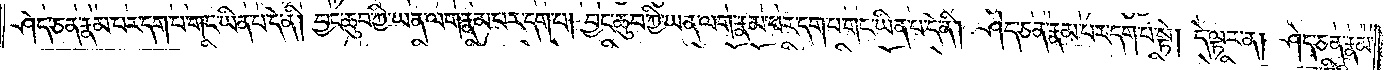ཤེད་ཅན་རྣམ་པར་དག་པ་གང་ཡིན་པ་དེ་ནི། བྱང་ཆུབ་ཀྱི་ཡན་ལག་རྣམ་པར་དག་པ། བྱང་ཆུབ་ཀྱི་ཡན་ལག་རྣམ་པར་དག་པ་གང་ཡིན་པ་དེ་ནི། ཤེད་ཅན་རྣམ་པར་དག་པ་སྟེ། དེ་ལྟར་ན། ཤེད་ཅན་རྣམ་
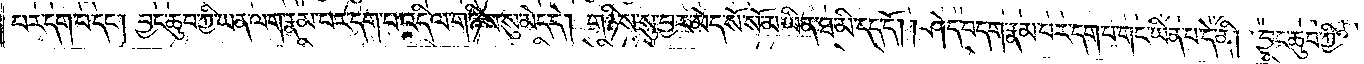པར་དག་པ་དང༌། བྱང་ཆུབ་ཀྱི་ཡན་ལག་རྣམ་པར་དག་པ་འདི་ལ་གཉིས་སུ་མེད་དེ། གཉིས་སུ་བྱར་མེད་སོ་སོ་མ་ཡིན་ཐ་མི་དད་དོ། །ཤེད་བདག་རྣམ་པར་དག་པ་གང་ཡིན་པ་དེ་ནི། བྱང་ཆུབ་ཀྱི་
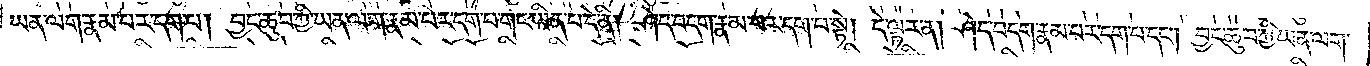ཡན་ལག་རྣམ་པར་དག་པ། བྱང་ཆུབ་ཀྱི་ཡན་ལག་རྣམ་པར་དག་པ་གང་ཡིན་པ་དེ་ནི། ཤེད་བདག་རྣམ་པར་དག་པ་སྟེ། དེ་ལྟར་ན། ཤེད་བདག་རྣམ་པར་དག་པ་དང༌། བྱང་ཆུབ་ཀྱི་ཡན་ལག་
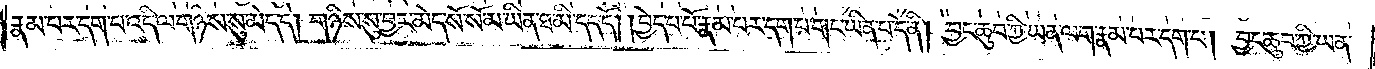རྣམ་པར་དག་པ་འདི་ལ་གཉིས་སུ་མེད་དེ། གཉིས་སུ་བྱར་མེད་སོ་སོ་མ་ཡིན་ཐ་མི་དད་དོ། །བྱེད་པ་པོ་རྣམ་པར་དག་པ་གང་ཡིན་པ་དེ་ནི། བྱང་ཆུབ་ཀྱི་ཡན་ལག་རྣམ་པར་དག་པ། བྱང་ཆུབ་ཀྱི་ཡན་
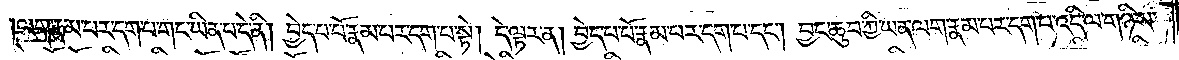ལག་རྣམ་པར་དག་པ་གང་ཡིན་པ་དེ་ནི། བྱེད་པ་པོ་རྣམ་པར་དག་པ་སྟེ། དེ་ལྟར་ན། བྱེད་པ་པོ་རྣམ་པར་དག་པ་དང༌། བྱང་ཆུབ་ཀྱི་ཡན་ལག་རྣམ་པར་དག་པ་འདི་ལ་གཉིས་
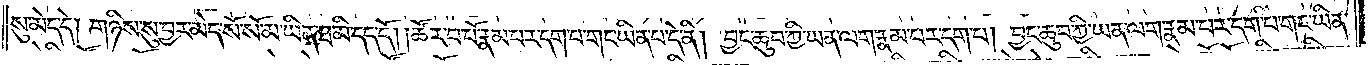སུ་མེད་དེ། གཉིས་སུ་བྱར་མེད་སོ་སོ་མ་ཡིན་ཐ་མི་དད་དོ། །ཚོར་བ་པོ་རྣམ་པར་དག་པ་གང་ཡིན་པ་དེ་ནི། བྱང་ཆུབ་ཀྱི་ཡན་ལག་རྣམ་པར་དག་པ། བྱང་ཆུབ་ཀྱི་ཡན་ལག་རྣམ་པར་དག་པ་གང་ཡིན་
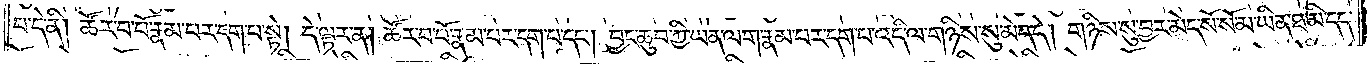པ་དེ་ནི། ཚོར་བ་པོ་རྣམ་པར་དག་པ་སྟེ། དེ་ལྟར་ན། ཚོར་བ་པོ་རྣམ་པར་དག་པ་དང༌། བྱང་ཆུབ་ཀྱི་ཡན་ལག་རྣམ་པར་དག་པ་འདི་ལ་གཉིས་སུ་མེད་དེ། གཉིས་སུ་བྱར་མེད་སོ་སོ་མ་ཡིན་ཐ་མི་དད་
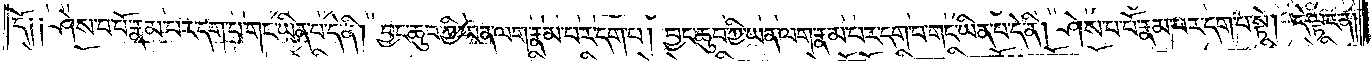དོ། །ཤེས་པ་པོ་རྣམ་པར་དག་པ་གང་ཡིན་པ་དེ་ནི། བྱང་ཆུབ་ཀྱི་ཡན་ལག་རྣམ་པར་དག་པ། བྱང་ཆུབ་ཀྱི་ཡན་ལག་རྣམ་པར་དག་པ་གང་ཡིན་པ་དེ་ནི། ཤེས་པ་པོ་རྣམ་པར་དག་པ་སྟེ། དེ་ལྟར་ན།
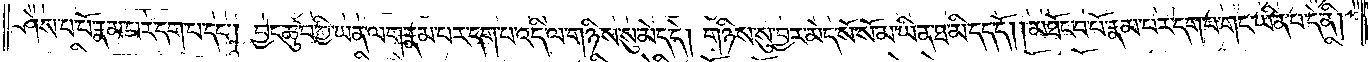ཤེས་པ་པོ་རྣམ་པར་དག་པ་དང༌། བྱང་ཆུབ་ཀྱི་ཡན་ལག་རྣམ་པར་དག་པ་འདི་ལ་གཉིས་སུ་མེད་དེ། གཉིས་སུ་བྱར་མེད་སོ་སོ་མ་ཡིན་ཐ་མི་དད་དོ། །མཐོང་བ་པོ་རྣམ་པར་དག་པ་གང་ཡིན་པ་དེ་ནི།
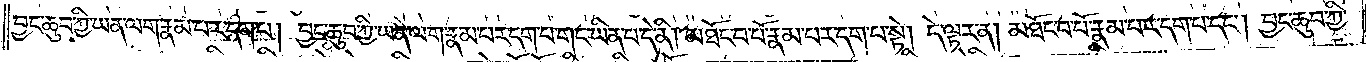བྱང་ཆུབ་ཀྱི་ཡན་ལག་རྣམ་པར་དག་པ། བྱང་ཆུབ་ཀྱི་ཡན་ལག་རྣམ་པར་དག་པ་གང་ཡིན་པ་དེ་ནི། མཐོང་བ་པོ་རྣམ་པར་དག་པ་སྟེ། དེ་ལྟར་ན། མཐོང་བ་པོ་རྣམ་པར་དག་པ་དང༌། བྱང་ཆུབ་ཀྱི་
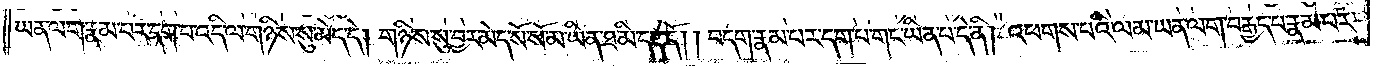ཡན་ལག་རྣམ་པར་དག་པ་འདི་ལ་གཉིས་སུ་མེད་དེ། གཉིས་སུ་བྱར་མེད་སོ་སོ་མ་ཡིན་ཐ་མི་དད་དོ། །བདག་རྣམ་པར་དག་པ་གང་ཡིན་པ་དེ་ནི། འཕགས་པའི་ལམ་ཡན་ལག་བརྒྱད་པ་རྣམ་པར་
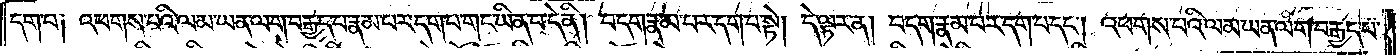དག་པ། འཕགས་པའི་ལམ་ཡན་ལག་བརྒྱད་པ་རྣམ་པར་དག་པ་གང་ཡིན་པ་དེ་ནི། བདག་རྣམ་པར་དག་པ་སྟེ། དེ་ལྟར་ན། བདག་རྣམ་པར་དག་པ་དང༌། འཕགས་པའི་ལམ་ཡན་ལག་བརྒྱད་པ་
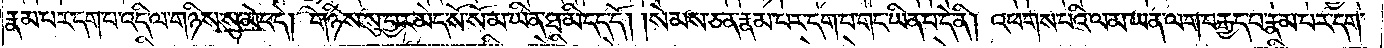རྣམ་པར་དག་པ་འདི་ལ་གཉིས་སུ་མེད་དེ། གཉིས་སུ་བྱར་མེད་སོ་སོ་མ་ཡིན་ཐ་མི་དད་དོ། །སེམས་ཅན་རྣམ་པར་དག་པ་གང་ཡིན་པ་དེ་ནི། འཕགས་པའི་ལམ་ཡན་ལག་བརྒྱད་པ་རྣམ་པར་དག་
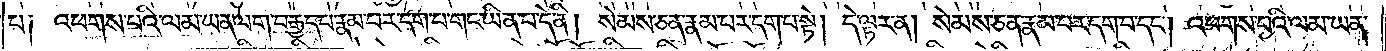པ། འཕགས་པའི་ལམ་ཡན་ལག་བརྒྱད་པ་རྣམ་པར་དག་པ་གང་ཡིན་པ་དེ་ནི། སེམས་ཅན་རྣམ་པར་དག་པ་སྟེ། དེ་ལྟར་ན། སེམས་ཅན་རྣམ་པར་དག་པ་དང༌། འཕགས་པའི་ལམ་ཡན་
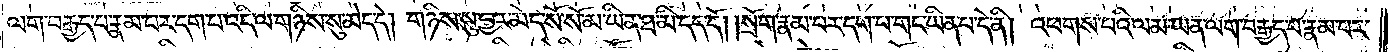ལག་བརྒྱད་པ་རྣམ་པར་དག་པ་འདི་ལ་གཉིས་སུ་མེད་དེ། གཉིས་སུ་བྱར་མེད་སོ་སོ་མ་ཡིན་ཐ་མི་དད་དོ། །སྲོག་རྣམ་པར་དག་པ་གང་ཡིན་པ་དེ་ནི། འཕགས་པའི་ལམ་ཡན་ལག་བརྒྱད་པ་རྣམ་པར་
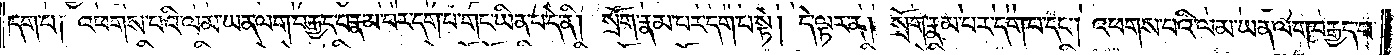དག་པ། འཕགས་པའི་ལམ་ཡན་ལག་བརྒྱད་པ་རྣམ་པར་དག་པ་གང་ཡིན་པ་དེ་ནི། སྲོག་རྣམ་པར་དག་པ་སྟེ། དེ་ལྟར་ན། སྲོག་རྣམ་པར་དག་པ་དང༌། འཕགས་པའི་ལམ་ཡན་ལག་བརྒྱད་པ་
